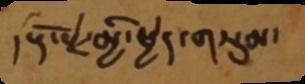།རྡོ་རྗེ་མྱི་ཕྱེད་གསུམ་
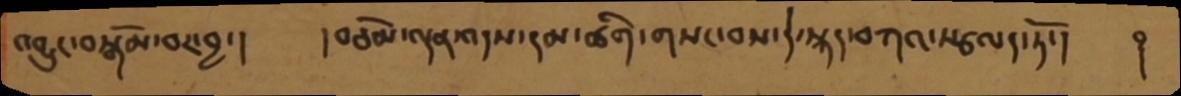འབྱུང་བསྒོམ་བར་བྱ་།    །བཅོམ་ལྡན་འདས་དམ་ཚིག་གསང་བས་དེ་སྐད་བཀའ་སྩལད་ཏོ་།   ࿑
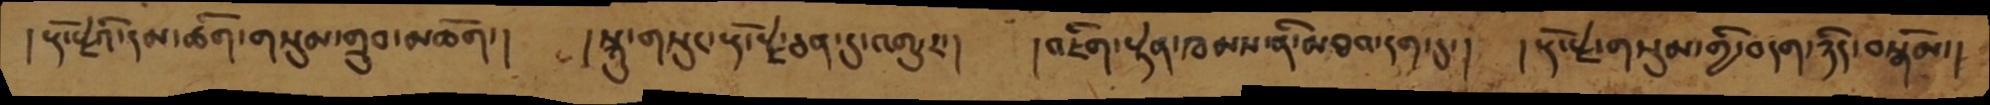།རྡོ་རྗེའི་དམ་ཚིག་གསུམ་གྲུབ་མཆོག་།  །སྐུ་གསུང་རྡོ་རྗེ་ཅན་དུ་འགྱུར་།  །འཇིག་རྟེན་ཁམས་ནི་མཐའ་དག་དུ་།   །རྡོ་རྗེ་གསུམ་གྱི་བདག་ཉིད་བསྒོམ་།
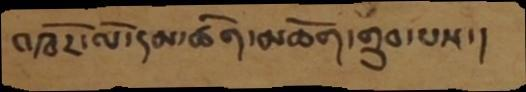འཁོར་ལོ་དམ་ཚིག་མཆོག་གྲུབ་པས་།
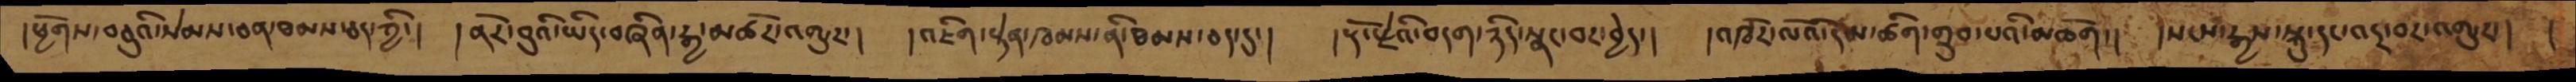།ཕྱོགས་བཅུའི་སེམས་ཅན་ཐམས་ཅད་ཀྱི་།  །ནོར་བུའི་ཡིད་བཞིན་རྒྱ་མཚོར་འགྱུར་།   །འཇིག་རྟེན་ཁམས་ནི་ཐམས་ཅད་དུ་།  །རྡོ་རྗེའི་བདག་ཉིད་སྣང་བར་བྱེད་།  །འཁོར་ལོའི་དམ་ཚིག་གྲུབ་པའི་མཆོག་།  །སངས་རྒྱས་སྐུ་དང་འདྲ་བར་འགྱུར་།  །
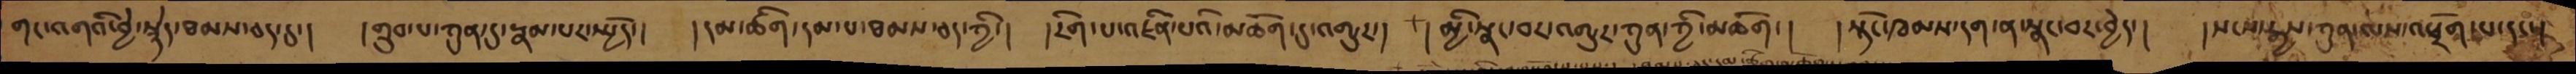གང་འགའི་བྱེ་སྙེདཐམས་ཅད་དུ་།   །གྲུབ་པ་ཀུན་དུ་རྣམ་པར་སྤྱོད་།   །དམ་ཚིག་དམ་པ་ཐམས་ཅད་ཀྱི་།   །རིག་པ་འཛིན་པའི་མཆོག་དུ་འགྱུར་།  །མྱི་སྣང་བར་འགྱུར་ཀུན་ཀྱི་མཆོག་།  །སྟོང་ཁམས་དག་ན་སྣང་བར་བྱེད་།   །སངས་རྒྱས་ཀུན་ལས་འཕྲོག་པ་དང་།
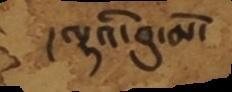།ལྷའི་བུ་མོ་
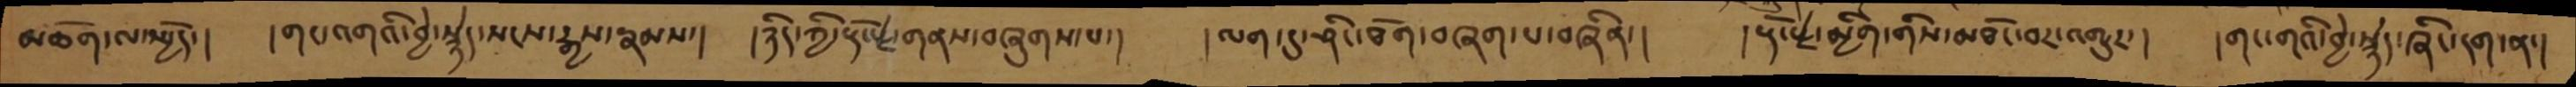མཆོག་ལ་སྤྱོད་།  །གང་འགའི་བྱེ་སྙེད་སངས་རྒྱས་རྣམས་།  །ཉིད་ཀྱི་རྡོ་རྗེ་གནས་བཞུགས་པ་།   །ལག་ཏུ་ཤིང་ཐོག་བཞག་པ་བཞིན་།   །རྡོ་རྗེ་མྱིག་གིས་མཐོང་བར་འགྱུར་།  །གང་འགའི་བྱེ་སྙེད་ཞིང་དག་ན་།
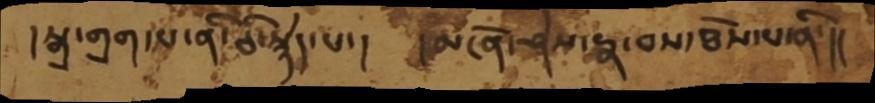།སྒྲ་གྲག་པ་ནི་ཅི་སྙེད་པ་།  །མངོན་ཤེས་རྣ་བས་ཐོས་པ་ནི་།།
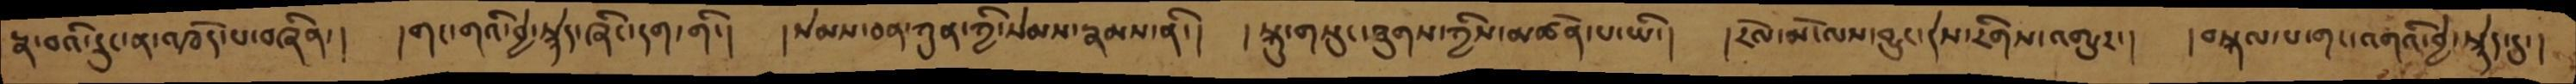རྣ་བའི་རུང་ན་འཁོད་པ་བཞིན་།  །གང་གའི་བྱེ་སྙེད་ཞིང་དག་གི་།   །སེམས་ཅན་ཀུན་ཀྱི་སེམས་རྣམས་ནི་།  །སྐུ་གསུང་ཐུགས་ཀྱིས་མཚོན་པ་ཡི་།  །རོལ་མོ་ལས་བྱུང་དེས་རིགས་འགྱུར་།   །བསྐལ་པ་གང་འགའི་བྱེ་སྙེད་དུ་།
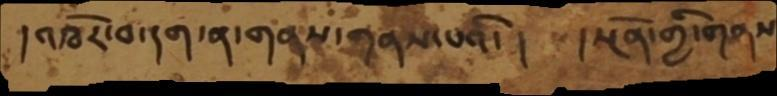།འཁོར་བ་དག་ན་གནས་གནས་པའི་།  །སྔོན་གྱི་གནས
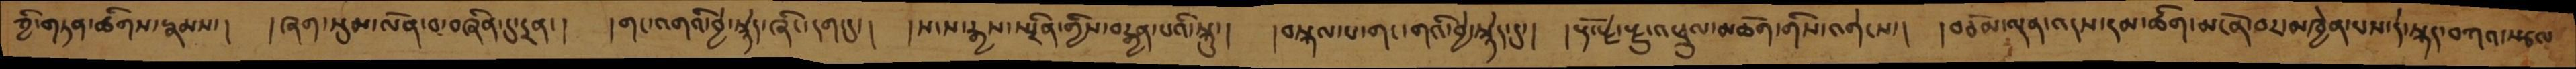ཀྱི་གཏན་ཚིགས་རྣམས་།  །ཞག་སུམ་ལེན་བ་བཞིན་དུ་དྲན་།  །གང་འགའི་བྱེ་སྙེད་ཞིང་དག་དུ་།  །སངས་རྒྱས་སྤྲིན་གྱིས་བརྒྱན་པའི་སྐུ་།  །བསྐལ་པ་གང་གའི་བྱེ་སྙེད་དུ་།  རྡོ་རྗེ་རྫུ་འཕྲུལ་མཆོག་གིས་འགེངས་།  །བཅོམ་ལྡན་འདས་དམ་ཚིག་མངོན་བར་མཁྱེན་པས་དེ་སྐད་བཀའ་སྩལ་
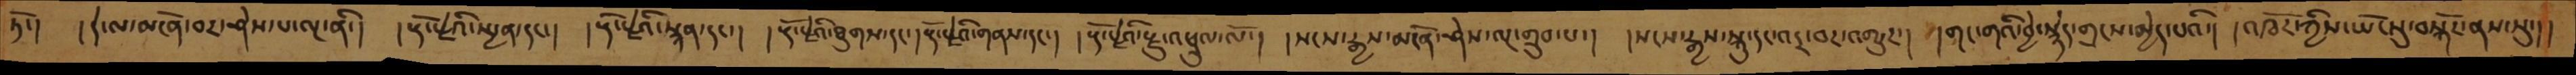ཏོ་།  །དེ་ལ་མངོན་བར་ཤེས་པ་ལྔ་ནི་།  །རྡོ་རྗེའི་སྤྱན་དང་།  །རྡོ་རྗེའི་སྙན་དང་།  །རྡོ་རྗེའི་ཐུགས་དང་།རྡོ་རྗེའི་གནས་དང་། །རྡོ་རྗེའི་རྫུ་འཕྲུལ་ལོ་། །སངས་རྒྱས་མངོན་ཤེས་ལྔ་གྲུབ་པ་། །སངས་རྒྱས་སྐུ་དང་འདྲ་བར་འགྱུར་། །གང་གའི་བྱེ་སྙེད་གྲངས་མྱེད་པའི་། །འཁོར་ཀྱིས་ཡོངསུ་བསྐོར་ནས་སུ་།།
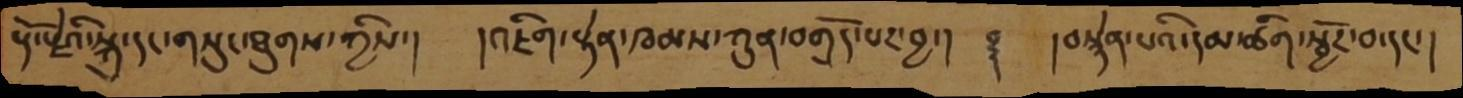རྡོ་རྗེའི་སྐུ་དང་གསུང་ཐུགས་ཀྱིས་།  །འཇིག་རྟེན་ཁམས་ཀུན་བགྲོད་པར་བྱ་།   ࿑  །བསྙེན་པའི་དམ་ཚིག་སྦྱོར་བ་དང་།
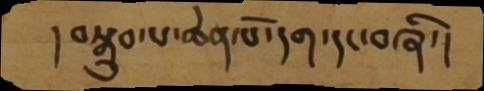།བསྒྲུབ་པ་ཆེན་པོ་དག་དང་བཞི་།
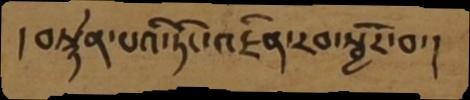།བསྙེན་པའི་ཏིང་འཛིན་རབ་སྦྱོར་བ་།
